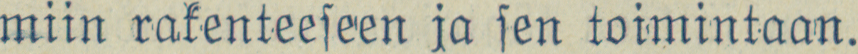miin rakenteeseen ja sen toimintaan.
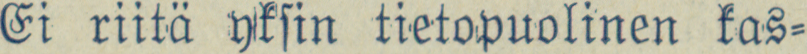Ei riitä yksin tietopuolinen kas-
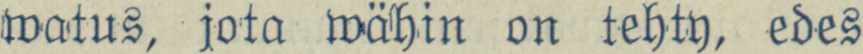watus, jota wähin on tehty, edes
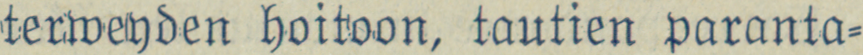terweyden hoitoon, tautien paranta-
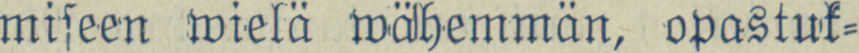miseen wielä wähemmän, opastuk-
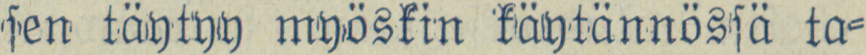sen täytyy myöskin käytännössä ta-
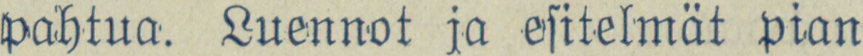pahtua. Luennot ja esitelmät pian
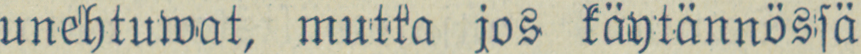unehtuwat, mutta jos käytännössä
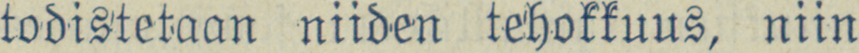todistetaan niiden tehokkuus, niin
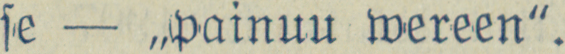se — „painuu wereen".
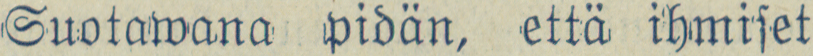Suotawana pidän, että ihmiset
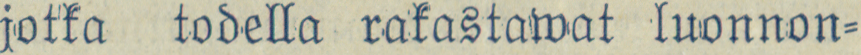jotka todella rakastawat luonnon-
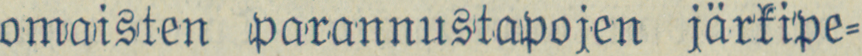omaisten parannustapojen järkipe-
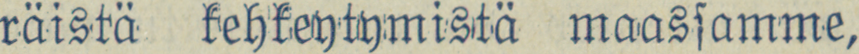räistä kehkeytymistä maassamme,
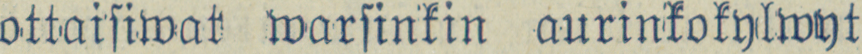ottaisiwat warsinkin aurinkokylwyt
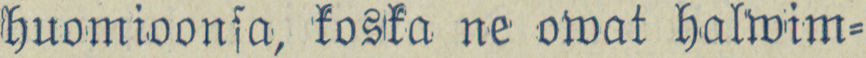huomioonsa, koska ne owat halwim-
